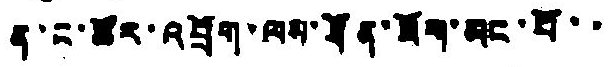ན་ང་ཚོར་འབྲོག་ལས་ཐོན་ཟོག་མང་པོ་་
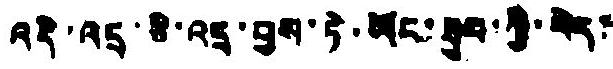འདི་འདྲ་ཅི་འདྲ་བྱས་ཏེ་ཡོང་ཐུབ་ཀྱི་རེད་
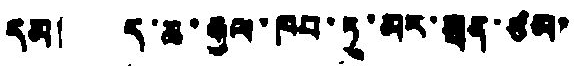དམ། ད་ཆ་རྒྱལ་ཁབ་ཏུ་མར་སྲན་ཙམ་
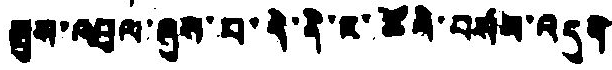སྤུས་འབུལ་ཞུས་པ་དེ་ནི་ང་ཚོའི་བསམ་འདུག
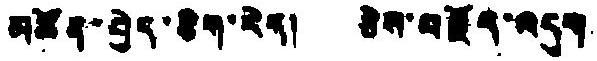མཚོན་བྱེད་ཅིག་རེད། ཅེས་བརྗོད་འདུག
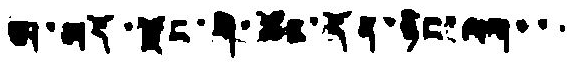ཨ་མདོ་རྫོང་གི་ཚོང་དོན་ཉིང་ལག་་་
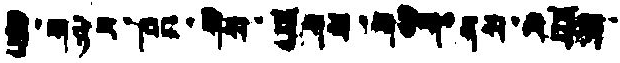སྤྱི་གཉེར་ཁང་གིས་ཕྱོགས་གཅིག་ནས་འབྲོག་
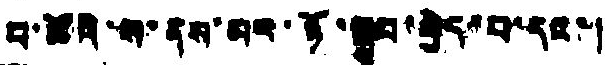བ་ཚོའི་ས་ནས་མར་ཉོ་སྒྲུབ་བྱེད་པ་དང་།
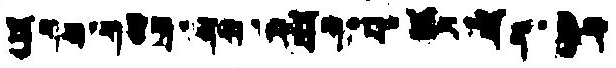ཕྱོགས་གཅིག་ནས་འབྲོག་པ་ཚོར་ཐོན་སྐྱེད
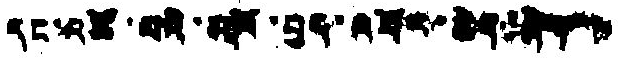དང་འཚོ་བའི་མཁོ་བྱད་འབོར་ཆེན་ཞིག་་་
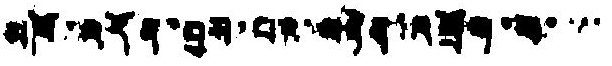མཁོ་འདོན་བྱས་པར་བརྟེན་འབྲོག་པ་་་་
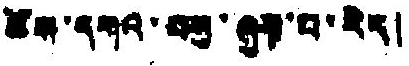ཚོས་དགའ་བསུ་ཞུས་བ་རེད།
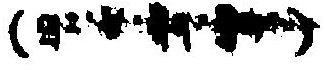(ཝར་ཙི་ཞིན་གྱིས་)
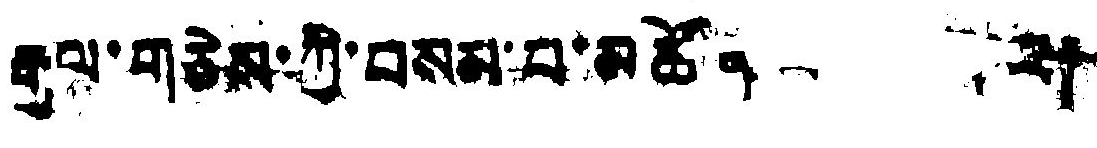རྒྱལ་གཅེས་ཀྱི་བསམ་པ་མཚོན་     ལ།
